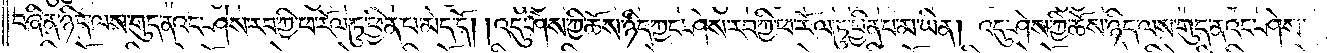བཞིན་ཉིད་ལས་གུད་ནའང་ཤེས་རབ་ཀྱི་ཕ་རོལ་ཏུ་ཕྱིན་པ་མེད་དོ། །འདུ་ཤེས་ཀྱི་ཆོས་ཉིད་ཀྱང་ཤེས་རབ་ཀྱི་ཕ་རོལ་ཏུ་ཕྱིན་པ་མ་ཡིན། འདུ་ཤེས་ཀྱི་ཆོས་ཉིད་ལས་གུད་ནའང་ཤེས་
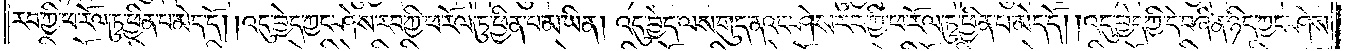རབ་ཀྱི་ཕ་རོལ་ཏུ་ཕྱིན་པ་མེད་དོ། །འདུ་བྱེད་ཀྱང་ཤེས་རབ་ཀྱི་ཕ་རོལ་ཏུ་ཕྱིན་པ་མ་ཡིན། འདུ་བྱེད་ལས་གུད་ནའང་ཤེས་རབ་ཀྱི་ཕ་རོལ་ཏུ་ཕྱིན་པ་མེད་དོ། །འདུ་བྱེད་ཀྱི་དེ་བཞིན་ཉིད་ཀྱང་ཤེས་
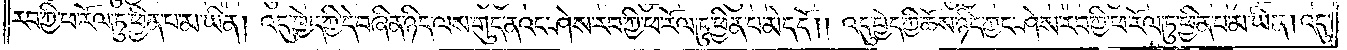རབ་ཀྱི་ཕ་རོལ་ཏུ་ཕྱིན་པ་མ་ཡིན། འདུ་བྱེད་ཀྱི་དེ་བཞིན་ཉིད་ལས་གུད་ནའང་ཤེས་རབ་ཀྱི་ཕ་རོལ་ཏུ་ཕྱིན་པ་མེད་དོ། །འདུ་བྱེད་ཀྱི་ཆོས་ཉིད་ཀྱང་ཤེས་རབ་ཀྱི་ཕ་རོལ་ཏུ་ཕྱིན་པ་མ་ཡིན། འདུ་
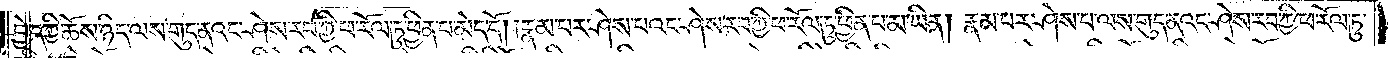བྱེད་ཀྱི་ཆོས་ཉིད་ལས་གུད་ནའང་ཤེས་རབ་ཀྱི་ཕ་རོལ་ཏུ་ཕྱིན་པ་མེད་དོ། །རྣམ་པར་ཤེས་པའང་ཤེས་རབ་ཀྱི་ཕ་རོལ་ཏུ་ཕྱིན་པ་མ་ཡིན། རྣམ་པར་ཤེས་པ་ལས་གུད་ནའང་ཤེས་རབ་ཀྱི་ཕ་རོལ་ཏུ་
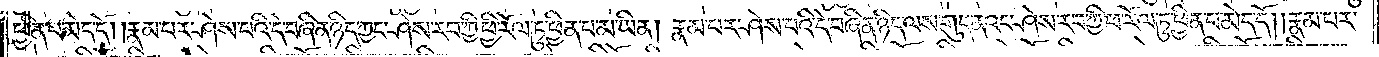ཕྱིན་པ་མེད་དོ། །རྣམ་པར་ཤེས་པའི་དེ་བཞིན་ཉིད་ཀྱང་ཤེས་རབ་ཀྱི་ཕ་རོལ་ཏུ་ཕྱིན་པ་མ་ཡིན། རྣམ་པར་ཤེས་པའི་དེ་བཞིན་ཉིད་ལས་གུད་ནའང་ཤེས་རབ་ཀྱི་ཕ་རོལ་ཏུ་ཕྱིན་པ་མེད་དོ། །རྣམ་པར་
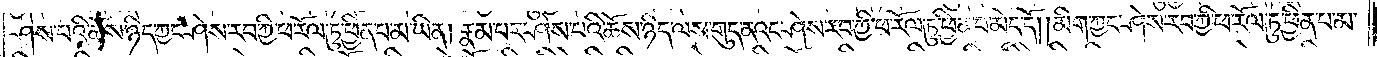ཤེས་པའི་ཆོས་ཉིད་ཀྱང་ཤེས་རབ་ཀྱི་ཕ་རོལ་ཏུ་ཕྱིན་པ་མ་ཡིན། རྣམ་པར་ཤེས་པའི་ཆོས་ཉིད་ལས་གུད་ནའང་ཤེས་རབ་ཀྱི་ཕ་རོལ་ཏུ་ཕྱིན་པ་མེད་དོ། །མིག་ཀྱང་ཤེས་རབ་ཀྱི་ཕ་རོལ་ཏུ་ཕྱིན་པ་མ་
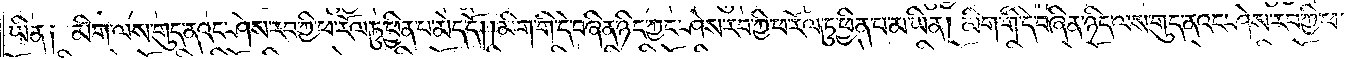ཡིན། མིག་ལས་གུད་ནའང་ཤེས་རབ་ཀྱི་ཕ་རོལ་ཏུ་ཕྱིན་པ་མེད་དོ། །མིག་གི་དེ་བཞིན་ཉིད་ཀྱང་ཤེས་རབ་ཀྱི་ཕ་རོལ་ཏུ་ཕྱིན་པ་མ་ཡིན། མིག་གི་དེ་བཞིན་ཉིད་ལས་གུད་ནའང་ཤེས་རབ་ཀྱི་ཕ་
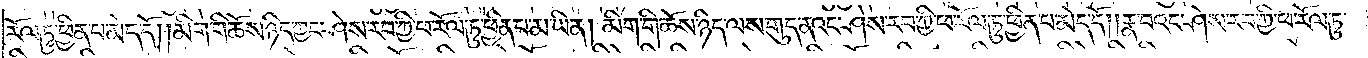རོལ་ཏུ་ཕྱིན་པ་མེད་དོ། །མིག་གི་ཆོས་ཉིད་ཀྱང་ཤེས་རབ་ཀྱི་ཕ་རོལ་ཏུ་ཕྱིན་པ་མ་ཡིན། མིག་གི་ཆོས་ཉིད་ལས་གུད་ནའང་ཤེས་རབ་ཀྱི་ཕ་རོལ་ཏུ་ཕྱིན་པ་མེད་དོ། །རྣ་བའང་ཤེས་རབ་ཀྱི་ཕ་རོལ་ཏུ་
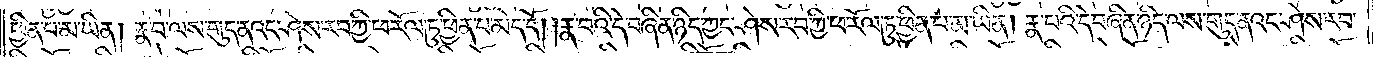ཕྱིན་པ་མ་ཡིན། རྣ་བ་ལས་གུད་ནའང་ཤེས་རབ་ཀྱི་ཕ་རོལ་ཏུ་ཕྱིན་པ་མེད་དོ། །རྣ་བའི་དེ་བཞིན་ཉིད་ཀྱང་ཤེས་རབ་ཀྱི་ཕ་རོལ་ཏུ་ཕྱིན་པ་མ་ཡིན། རྣ་བའི་དེ་བཞིན་ཉིད་ལས་གུད་ནའང་ཤེས་རབ་
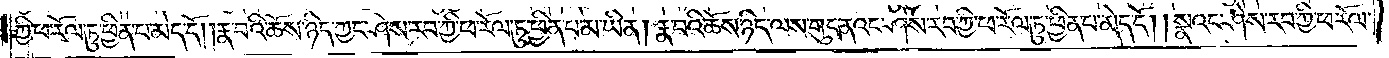ཀྱི་ཕ་རོལ་ཏུ་ཕྱིན་པ་མེད་དོ། །རྣ་བའི་ཆོས་ཉིད་ཀྱང་ཤེས་རབ་ཀྱི་ཕ་རོལ་ཏུ་ཕྱིན་པ་མ་ཡིན། རྣ་བའི་ཆོས་ཉིད་ལས་གུད་ནའང་ཤེས་རབ་ཀྱི་ཕ་རོལ་ཏུ་ཕྱིན་པ་མེད་དོ། །སྣའང་ཤེས་རབ་ཀྱི་ཕ་རོལ་
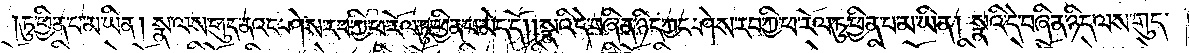ཏུ་ཕྱིན་པ་མ་ཡིན། སྣ་ལས་གུད་ནའང་ཤེས་རབ་ཀྱི་ཕ་རོལ་ཏུ་ཕྱིན་པ་མེད་དོ། །སྣའི་དེ་བཞིན་ཉིད་ཀྱང་ཤེས་རབ་ཀྱི་ཕ་རོལ་ཏུ་ཕྱིན་པ་མ་ཡིན། སྣའི་དེ་བཞིན་ཉིད་ལས་གུད་
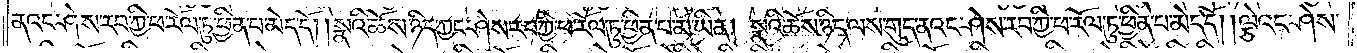ནའང་ཤེས་རབ་ཀྱི་ཕ་རོལ་ཏུ་ཕྱིན་པ་མེད་དོ། །སྣའི་ཆོས་ཉིད་ཀྱང་ཤེས་རབ་ཀྱི་ཕ་རོལ་ཏུ་ཕྱིན་པ་མ་ཡིན། སྣའི་ཆོས་ཉིད་ལས་གུད་ནའང་ཤེས་རབ་ཀྱི་ཕ་རོལ་ཏུ་ཕྱིན་པ་མེད་དོ། །ལྕེའང་ཤེས་
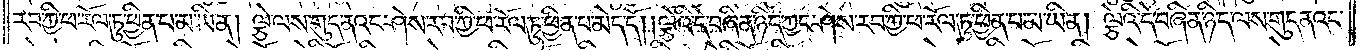རབ་ཀྱི་ཕ་རོལ་ཏུ་ཕྱིན་པ་མ་ཡིན། ལྕེ་ལས་གུད་ནའང་ཤེས་རབ་ཀྱི་ཕ་རོལ་ཏུ་ཕྱིན་པ་མེད་དོ། །ལྕེའི་དེ་བཞིན་ཉིད་ཀྱང་ཤེས་རབ་ཀྱི་ཕ་རོལ་ཏུ་ཕྱིན་པ་མ་ཡིན། ལྕེའི་དེ་བཞིན་ཉིད་ལས་གུད་ནའང་
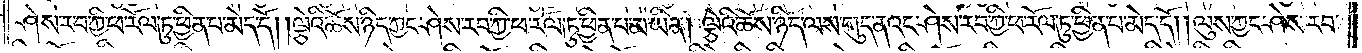ཤེས་རབ་ཀྱི་ཕ་རོལ་ཏུ་ཕྱིན་པ་མེད་དོ། །ལྕེའི་ཆོས་ཉིད་ཀྱང་ཤེས་རབ་ཀྱི་ཕ་རོལ་ཏུ་ཕྱིན་པ་མ་ཡིན། ལྕེའི་ཆོས་ཉིད་ལས་གུད་ནའང་ཤེས་རབ་ཀྱི་ཕ་རོལ་ཏུ་ཕྱིན་པ་མེད་དོ། །ལུས་ཀྱང་ཤེས་རབ་
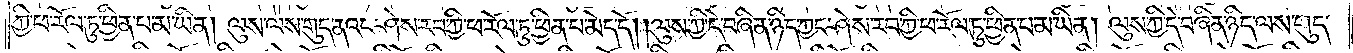ཀྱི་ཕ་རོལ་ཏུ་ཕྱིན་པ་མ་ཡིན། ལུས་ལས་གུད་ནའང་ཤེས་རབ་ཀྱི་ཕ་རོལ་ཏུ་ཕྱིན་པ་མེད་དོ། །ལུས་ཀྱི་དེ་བཞིན་ཉིད་ཀྱང་ཤེས་རབ་ཀྱི་ཕ་རོལ་ཏུ་ཕྱིན་པ་མ་ཡིན། ལུས་ཀྱི་དེ་བཞིན་ཉིད་ལས་གུད་
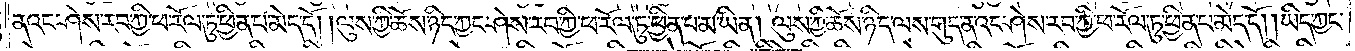ནའང་ཤེས་རབ་ཀྱི་ཕ་རོལ་ཏུ་ཕྱིན་པ་མེད་དོ། །ལུས་ཀྱི་ཆོས་ཉིད་ཀྱང་ཤེས་རབ་ཀྱི་ཕ་རོལ་ཏུ་ཕྱིན་པ་མ་ཡིན། ལུས་ཀྱི་ཆོས་ཉིད་ལས་གུད་ནའང་ཤེས་རབ་ཀྱི་ཕ་རོལ་ཏུ་ཕྱིན་པ་མེད་དོ། །ཡིད་ཀྱང་
